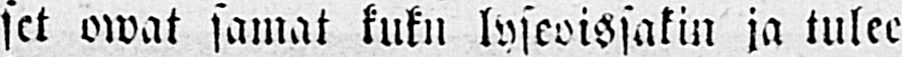set owat samat kuku lyseoissakin ja tulee
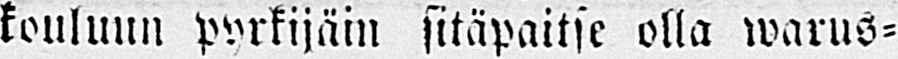kouluun pyrkijäin sitäpaitse olla warus-
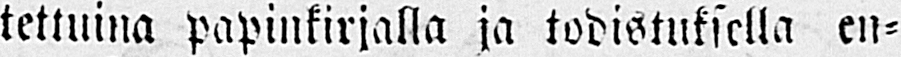tettuina papinkirjalla ja todistuksella en-
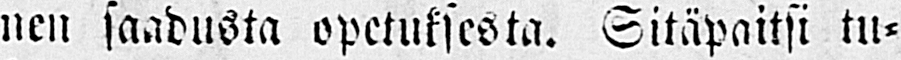nen saadusta opetuksesta. Sitäpaitsi tu-
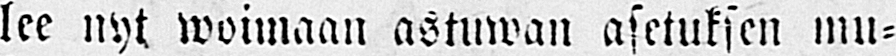lee nyt woimaan astuwan asetuksen mu-
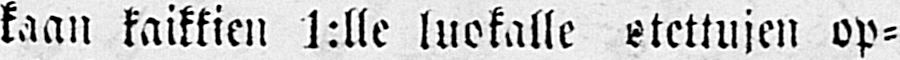kaan kaikkien 1:lle luokalle otettujen op-
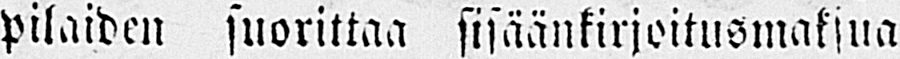pilaiden suorittaa sisäänkirjoitusmaksua
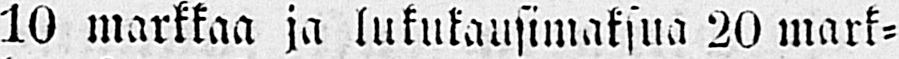10 markkaa ja lukukausimaksua 20 mark-
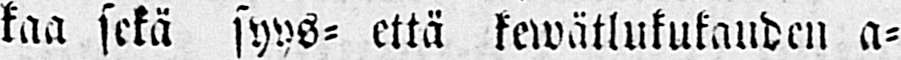kaa sekä syys- että kewätlukukauden a-
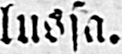lussa.
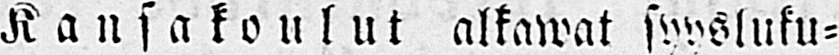Kansakoulut alkawat syysluku-
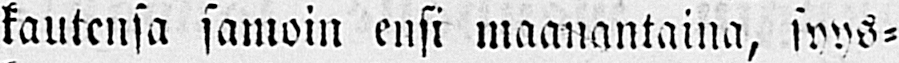kautensa samoin ensi maanantaina, syys-
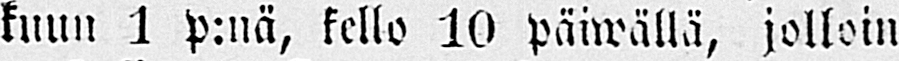kuun 1 p:nä, kello 10 päiwällä, jolloin
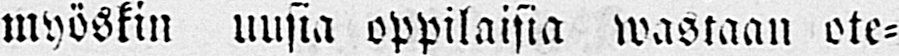myöskin uusia oppilaisia wastaan ote-
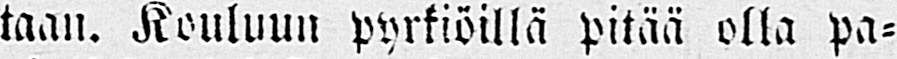taan. Kouluun pyrkiöillä pitää olla pa-
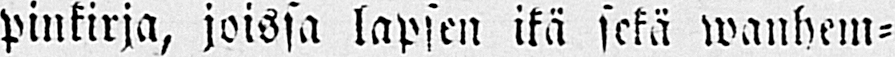pinkirja, joissa lapsen ikä sekä wanhem-
